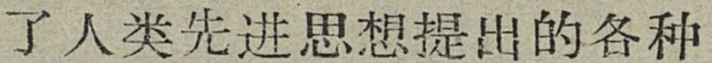了人类先进思想提出的各种
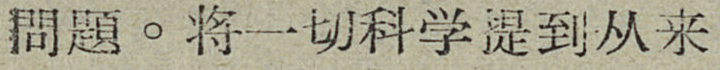問題。将一切科学提到从来
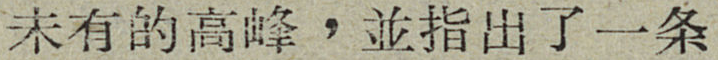未有的高峰，並指出了一条
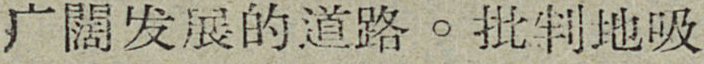广闊发展的道路。批判地吸
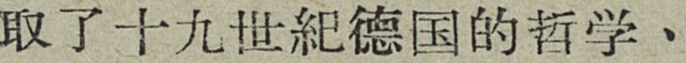取了十九世紀德国的哲学、
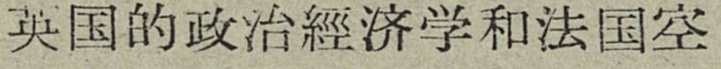英国的政治經济学和法国空
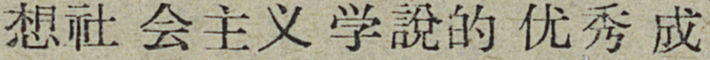想社会主义学說的优秀成
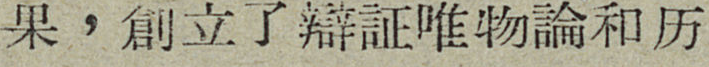果，創立了辯証唯物論和历
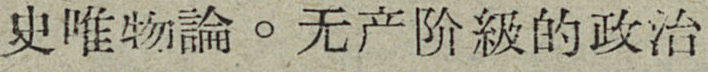史唯物論。无产阶級的政治
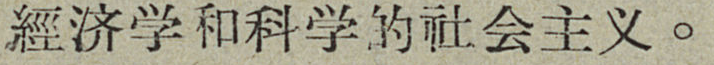經济学和科学的社会主义。
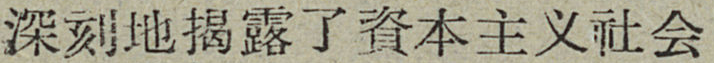深刻地揭露了資本主义社会
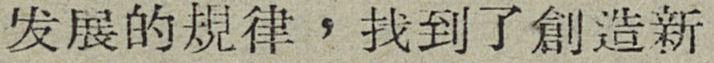发展的規律，找到了創造新
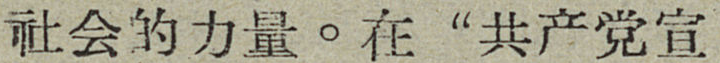社会的力量。在“共产党宣
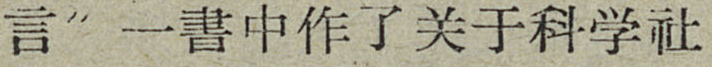言”一書中作了关于科学社
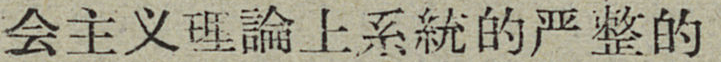会主义理論上系統的严整的
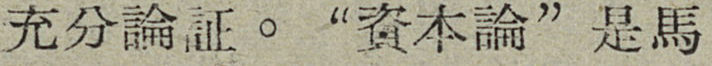充分論証。“資本論”是馬
